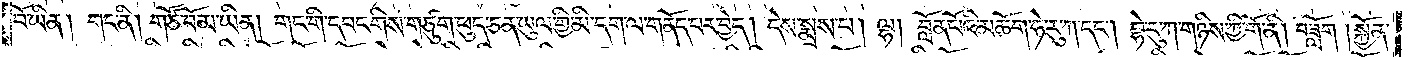བོ་ཡིན། གང་ནི། གཙོ་བོ་མ་ཡིན། གང་གི་དབང་གིས་གཙུག་ཕུད་ཅན་ཡུལ་གྱི་མི་དག་ལ་གནོད་པར་བྱེད། དེས་སྨྲས་པ། ལྷ། བློན་པོའི་མཆོག་ཧེ་རུ་ཀ་དང༌། བྷེ་རུ་ཀ་གཉིས་ཀྱི་གོ་ནི། བཟློག །སྐྱོན་
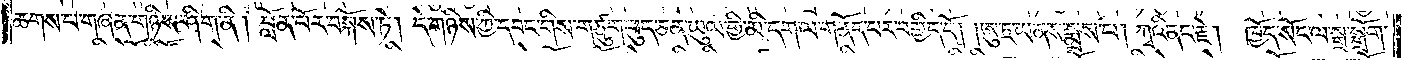ཆགས་པ་གཞན་གཉིས་ཤིག་ནི། བློན་པོར་བསྐོས་ཏེ། དེ་གཉིས་ཀྱི་དབང་གིས་གཙུག་ཕུད་ཅན་ཡུལ་གྱི་མི་དག་ལ་གནོད་པར་བགྱིད་དོ། །ཨུ་ཏྲ་ཡ་ནས་སྨྲས་པ། ཀྭའི་ནང་རྗེ། ཁྱོད་སོང་ལ་སྒྲ་སྒྲོག་
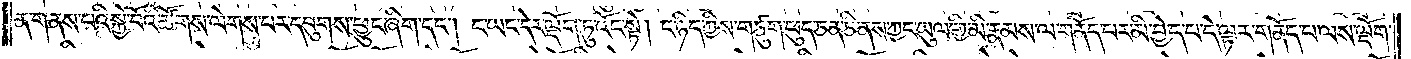ན་གནས་པའི་སྐྱེ་བོའི་ཚོགས་ལེགས་པར་དབུགས་ཕྱུང་ཞིག་དང༌། ང་ཡང་དེར་ལྡོག་ཏུ་འོང་སྟེ། ང་ཉིད་ཀྱིས་གཙུག་ཕུད་ཅན་ཅི་ནས་ཀྱང་ཡུལ་གྱི་མི་རྣམས་ལ་གནོད་པར་མི་བྱེད་པ་དེ་ལྟར་གནོད་པ་ལས་ལྡོག་
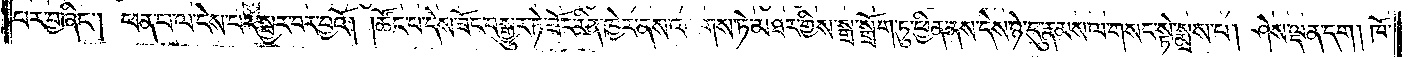པར་བྱ་ཞིང༌། ཕན་པ་ལ་ངེས་པར་སྦྱར་བར་བྱའོ། །ཚོང་པ་དེས་ཟོང་བསྒྱུར་ཏེ་ཟོང་རིན་ཁྱེར་ནས་འཕགས་ཏེ་མཐར་གྱིས་སྒྲ་སྒྲོག་ཏུ་ཕྱིན་ནས་དེས་ཉེད་དུ་རྣམས་ལ་གསང་སྟེ་སྨྲས་པ། ཤེས་ལྡན་དག །ཁོ་
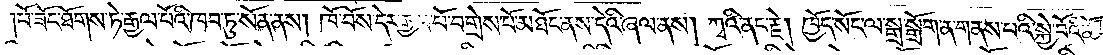།བོ་ཟོང་ཐོགས་ཏེ་རྒྱལ་པོའི་ཁབ་ཏུ་སོན་ནས། ཁོ་བོས་དེར་རྒྱལ་པོ་བགྲེས་པོ་མཐོང་ནས་དེའི་ཞལ་ནས། ཀྭའི་ནང་རྗེ། ཁྱོད་སོང་ལ་སྒྲ་སྒྲོག་ན་གནས་པའི་སྐྱེ་བོའི་ཚོགས་
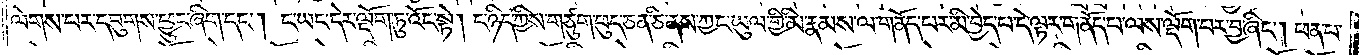ལེགས་པར་དབུགས་ཕྱུང་ཞིག་དང༌། ང་ཡང་དེར་ལྡོག་ཏུ་འོང་སྟེ། ང་ཉིད་ཀྱིས་གཙུག་ཕུད་ཅན་ཅི་ནས་ཀྱང་ཡུལ་གྱི་མི་རྣམས་ལ་གནོད་པར་མི་བྱེད་པ་དེ་ལྟར་གནོད་པ་ལས་ལྡོག་པར་བྱ་ཞིང༌། ཕན་པ་
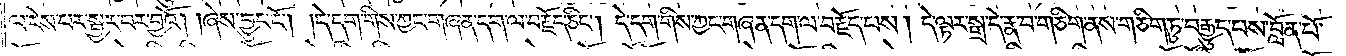ལ་ངེས་པར་སྦྱར་བར་བྱའོ། །ཞེས་བྱུང་ངོ༌། །དེ་དག་གིས་ཀྱང་གཞན་དག་ལ་བརྗོད་ཅིང༌། དེ་དག་གིས་ཀྱང་གཞན་དག་ལ་བརྗོད་པས། དེ་ལྟར་སྒྲ་དེ་རྣ་བ་གཅིག་ནས་གཅིག་ཏུ་བརྒྱུད་པས་བློན་པོ་
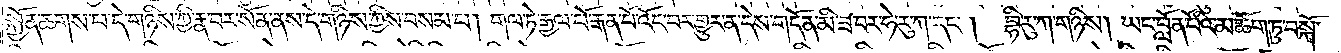སྐྱོན་ཆགས་པ་དེ་གཉིས་ཀྱི་རྣ་བར་སོན་ནས་དེ་གཉིས་ཀྱིས་བསམ་པ། གལ་ཏེ་རྒྱལ་པོ་རྒན་པོ་འོང་བར་གྱུར་ན་དེས་གདོན་མི་ཟ་བར་ཧེ་རུ་ཀ་དང༌། བྷི་རུ་ཀ་གཉིས། ཡང་བློན་པོའི་མཆོག་ཏུ་བསྐོ་
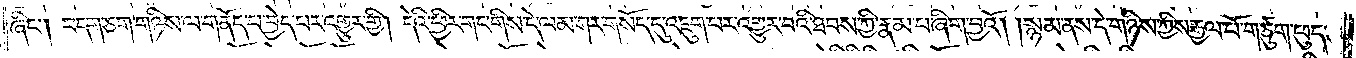ཞིང༌། བདག་ཅག་གཉིས་ལ་གནོད་པ་བྱེད་པར་འགྱུར་གྱི། དེའི་ཕྱིར་གང་གིས་དེ་ལམ་གར་གསོད་དུ་འཇུག་པར་འགྱུར་བའི་ཐབས་ཀྱི་རྣམ་པ་ཞིག་བྱའོ། །སྙམ་ནས་དེ་གཉིས་ཀྱིས་རྒྱལ་པོ་གཙུག་ཕུད་
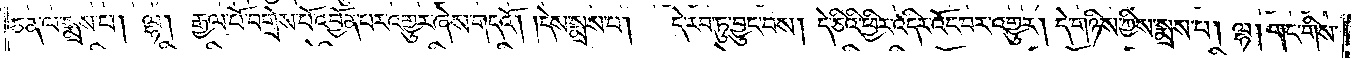ཅན་ལ་སྨྲས་པ། ལྷ། རྒྱལ་པོ་བགྲེས་པོ་འབྱོན་པར་འགྱུར་ཞེས་གདའོ། །དེས་སྨྲས་པ།    དེ་རབ་ཏུ་བྱུང་བས། དེ་ཅིའི་ཕྱིར་འདིར་འོང་བར་འགྱུར། དེ་གཉིས་ཀྱིས་སྨྲས་པ། ལྷ། གང་གིས་
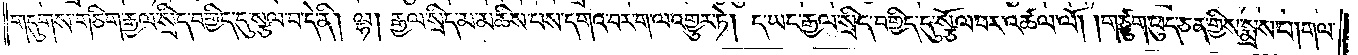གདུགས་གཅིག་རྒྱལ་སྲིད་བགྱིད་དུ་སྩལ་བ་དེ་ནི། ལྷ། རྒྱལ་སྲིད་མ་མཆིས་པས་དགའ་བར་ག་ལ་འགྱུར་ཏེ། ད་ཡང་རྒྱལ་སྲིད་བགྱིད་དུ་སྩོལ་བར་འཚལ་ལོ། །གཙུག་ཕུད་ཅན་གྱིས་སྨྲས་པ། གལ་
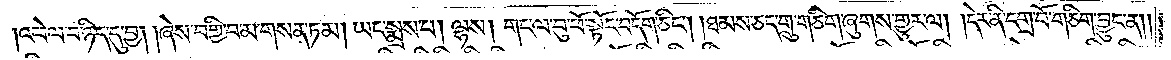།འཕེལ་བ་ཉིད་དུ་བྱ། །ཞེས་བགྱི་བ་མ་གསན་ཏམ། ཡང་སྨྲས་པ། ལྷས། གང་ལ་བུ་ཕོ་སྟོང་བདོག་ཅིང༌། །ཐམས་ཅད་གྲུ་གཅིག་ཞུགས་གྱུར་ལ། །དེར་ནི་དགྲ་བོ་གཅིག་བྱུང་ན༎
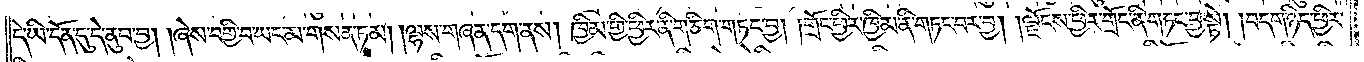དེ་ཡི་དོན་དུ་དེ་ནུབ་བྱ། །ཞེས་བགྱི་བ་ཡང་མ་གསན་ཏམ། །ལྷས་གཞན་དག་ནས། ཁྱིམ་གྱི་ཕྱིར་ནི་གཅིག་གཏང་བྱ། །གྲོང་ཕྱིར་ཁྱིམ་ནི་གཏང་བར་བྱ། །ལྗོངས་ཕྱིར་གྲོང་ནི་གཏང་བྱ་སྟེ། །བདག་ཉིད་ཕྱིར་
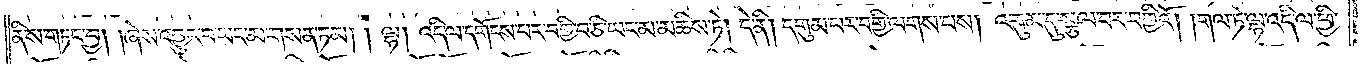ནི་ས་གཏང་བྱ། །ཞེས་འབྱུང་བ་ཡང་མ་གསན་ཏམ། །ལྷ། འདི་ལ་དགོངས་པར་བགྱི་བ་ཅི་ཡང་མ་མཆིས་ཏེ། དེ་ནི། དགུམ་པར་བགྱི་ལགས་པས། འགུམ་དུ་སྩལ་བར་བགྱིའོ། །གལ་ཏེ་ལྷ་འདི་ལ་ཕྱི་
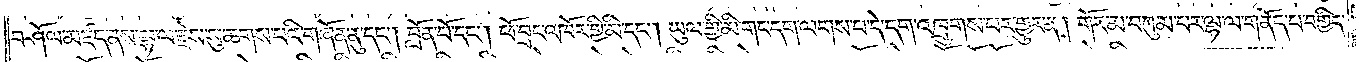བཤོལ་མཛད་ནས་ལྷ་ལ་རྗེས་སུ་ཆགས་པའི་གཞོན་ནུ་དང༌། བློན་པོ་དང༌། ཕོ་བྲང་འཁོར་གྱི་མི་དང༌། ཡུལ་གྱི་མི་གང་དག་ལགས་པ་དེ་དག་འཁྲུགས་པར་གྱུར་ན། གོར་མ་བཀུམ་པར་ལྷ་ལ་གནོད་པ་བགྱིད་
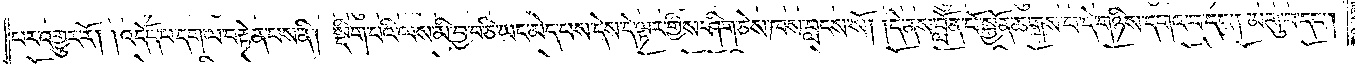པར་འགྱུར་རོ། །འདོད་པ་དག་ལ་བརྟེན་པས་ནི། སྡིག་པའི་ལས་མི་བྱ་བ་ཅི་ཡང་མེད་པས་དེས་དེ་ལྟར་གྱིས་ཤིག་ཅེས་ཁས་བླངས་སོ། །དེ་ནས་བློན་པོ་སྐྱོན་ཆགས་པ་དེ་གཉིས་དགའ་བ་དང༌། མགུ་བ་དང༌།
